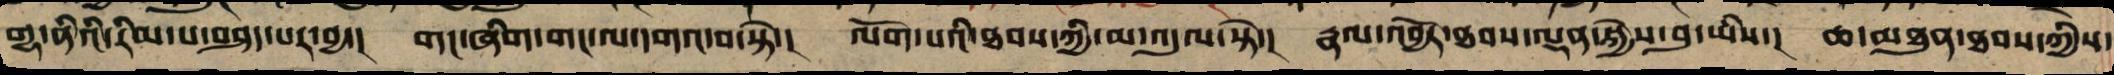གྷ་ནའི་རིམ་པ་བཤད་པར་བྱ་། གང་ཞིག་གང་ལ་དགའ་བ་སྟེ་། ལོག་པའི་ཐབས་ཀྱིས་མི་འདུལ་སྟེ་། རྣལ་འབྱོར་ཐབས་ལྡན་སྐྱེས་བུ་ཡིས་། ཆ་མཐུན་ཐབས་ཀྱིས་
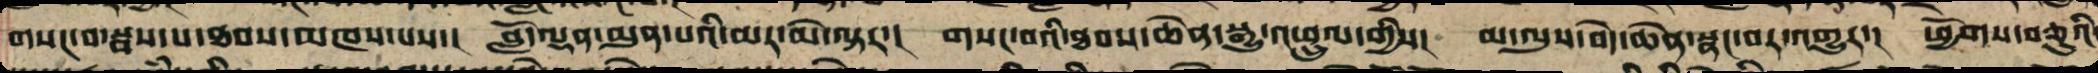གསང་བ་སྦས་པ་ཐབས་མཁས་པས་། བློ་ལྡན་མུན་པའི་མར་མེ་ལྟར་། གསང་བའི་ཐབས་ཆེན་སྒྱུ་འཕྲུལ་གྱིས་། མ་ལུས་བདེ་ཆེན་སྣང་བར་འགྱུར་། ཕྱོགས་བཅུའི་
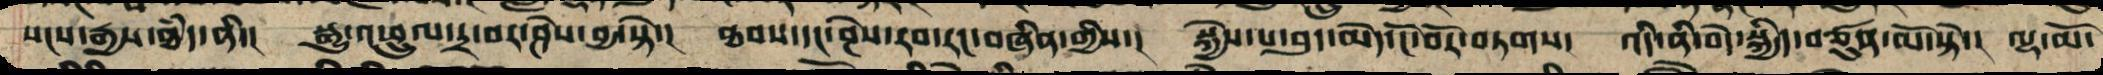སངས་རྒྱས་ཐཾད་ནི་། སྒྱུ་འཕྲུལ་དྲ་བར་ཤེས་བྱ་སྟེ་། ཐབས་དང་ཤེས་རབ་རང་བཞིན་གྱིས་། སྐྱེས་པ་བུད་མེད་ངོ་བོར་བཏགས་། འདི་ནི་བདེ་སྐྱིད་བཙུན་མོ་སྟེ་། ལྷ་མོ་
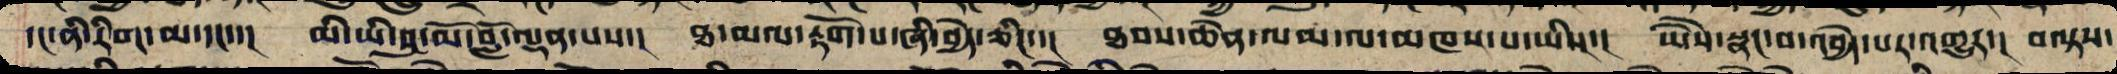དང་ནི་རིག་མ་དང་་། མི་ཡི་བུ་མོ་བློ་ལྡན་པས་། ཐ་མལ་རྟོག་པ་ཞི་བྱེད་ཅིང་་། ཐབས་ཆེན་ལམ་ལ་མཁས་པ་ཡིས་། ཡཻས་སྣང་བ་འབྱེད་པར་འགྱུར་། བལྟས་
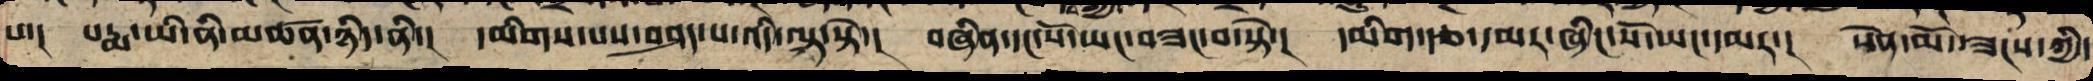པ་། པདྨ་ནཱི་ཡི་མཚན་ཉིད་ནི་། དམིགས་པས་བཤད་པ་འདི་ལྟ་སྟེ་། བཞིན་དང་སོ་ཡང་བཟང་བ་སྟེ་། མིག་རྩ་དམར་ཞིང་སོ་ཡང་དམར་། སེན་མོ་ཟངས་ཀྱི་
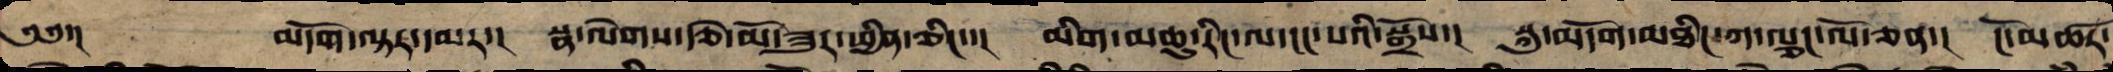༄༅་། མདོག་ལྟར་དམར་། སྣ་ལེགས་རྩེ་མོ་ཟུར་ཕྱིན་ཅིང་་། མིག་མཆུ་རིང་ལ་ངང་པའི་སྒྲོས་། སྐུ་མདོག་མཐིང་ཀ་ལྕང་ལོ་ཅན་། ངོ་མཚར་
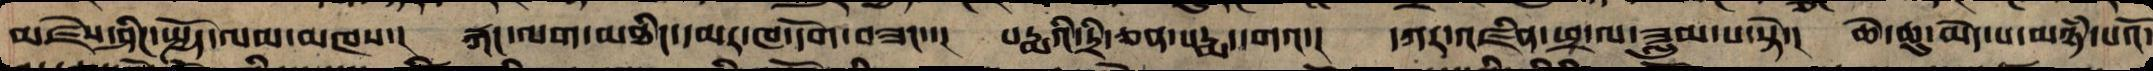མཛེས་ཤིང་སྤྱོད་ལམ་མཁས་། རྐང་ལག་མཐིལ་དམར་ཁ་དོག་བཟང་་། པདྨའི་དྲི་ཅན་པདྨ་དགའ་། དཀར་འཛིན་ཕྲ་ལ་ཟླུམ་པ་སྟེ་། ཆེ་ཆུང་མེད་པར་མཉཾ་པའོ་
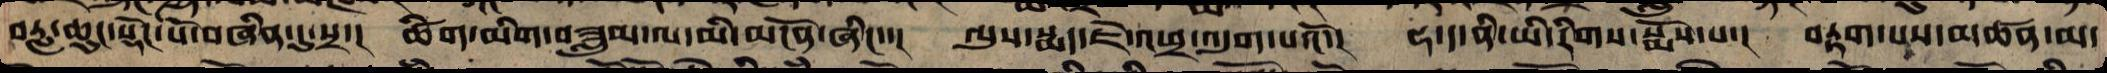བརླ་ཆུང་སྡོང་པོ་བཞིན་དུ་སྲ་། ཚིག་མིག་བཟླུམ་ལ་མི་མངོན་ཞིང་་། ལུས་སྨད་ཇེ་ཕྲ་འདུག་པའོ་། ཧ་ད་ནི་ཡི་རིགས་སྨོས་པ་། བརྟག་པས་མཚན་མ་
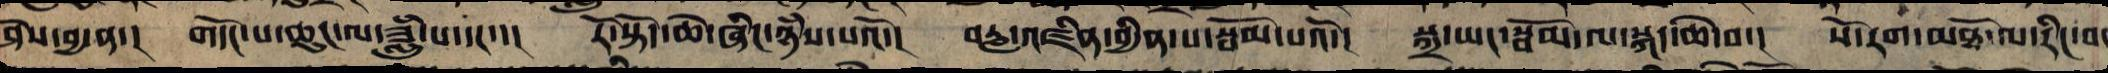ཤེས་བྱ་ན་། གདོང་པ་ཆུང་ལ་ཟླུཾ་པ་དང་་། རོ་སྟོད་ཆེ་ཞིང་མཉཾས་པའོ་། བརླ་འཇིན་བྱིན་པ་སྦོམ་པའོ་། སྐྲ་ཡང་སྦོམ་ལ་སྐད་ཆེ་བ་། སོ་རགས་མཐོ་ལ་རིང་བ་
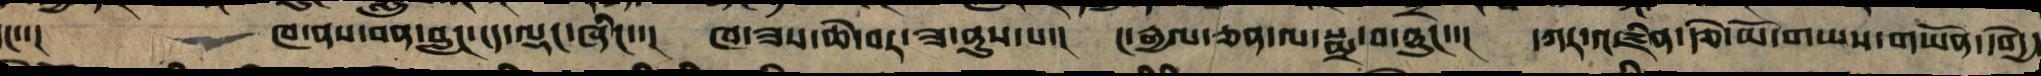དང་་། ཁ་ནས་བན་བླང་ངད་ལྡང་ཞིང་་། ཁ་ཟས་ཆེ་བར་ཟ་ནུས་པ་། ང་རྒྱལ་ཅན་ལ་སྨྲ་བ་ཉུང་་། དཀར་འཛིན་རྩེ་མོ་གཡས་གཡོན་དགྱེ་
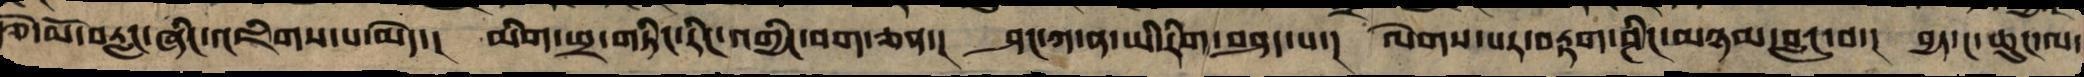རྩེ་མོ་བརླང་ཞིང་འཇིགས་པ་མེད་། མིག་ཕྲ་གཏིང་རིང་འགྱིང་བག་ཅན་། ཤང་ཀ་ན་ཡི་རིག་བཤད་པ་། ལེགས་པར་བརྟག་ཤིང་མཉམ་བླང་པ་། བྱད་ང་ཆུང་ལ་
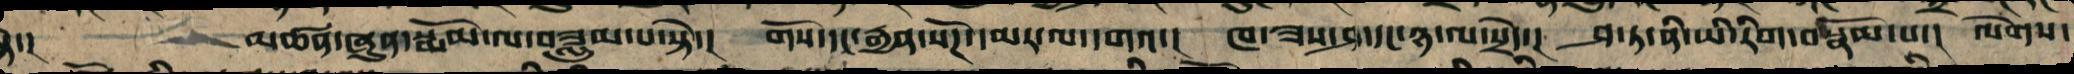སྟེ་། མཆན་ཁུན་སྨོམ་ལ་བཟླུམ་པ་སྟེ་། གོས་དང་རྒྱན་སོགས་དམར་ལ་དགའ་། ཁ་ཟས་ཤ་དང་ཉ་ལ་སྲེད་། ཤ་ཏ་ན་ཡི་རིགས་་བསྣོམ་པ་། ལེགས་
